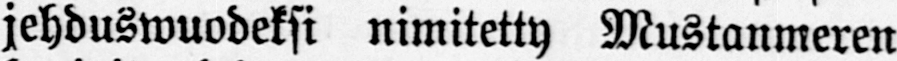jehduswuodeksi nimitetty Mustanmeren
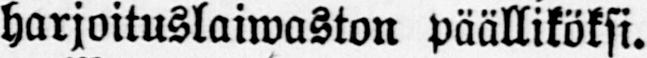harjoituslaiwaston päälliköksi.
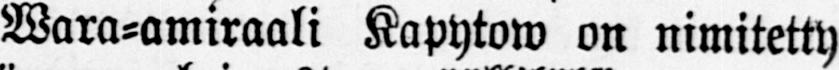Wara-amiraali Kapytow on nimitetty
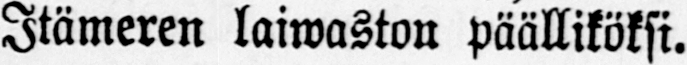Itämeren laiwaston päälliköksi.
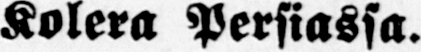Kolera Persiassa.
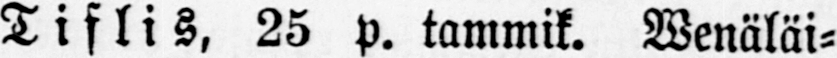Tiflis. 25 p. tammik. Wenäläi-
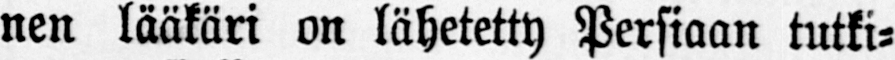nen lääkäri on lähetetty Persiaan tutki-
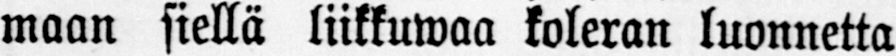maan siellä liikkuwaa koleran luonnetta
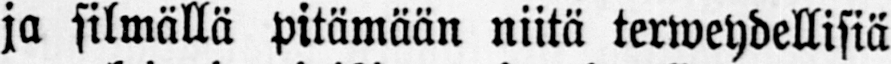ja silmällä pitämään niitä terweydellisiä
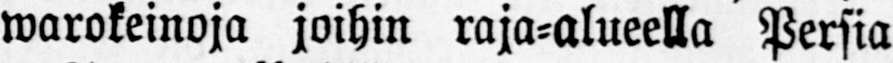warokeinoja joihin raja-alueella Persia
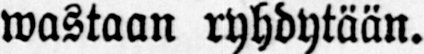wastaan ryhdytään.
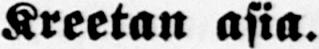Kreetan asia.
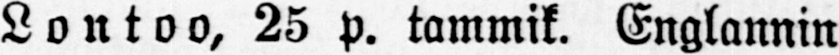Lontoo, 25 p. tammik. Englannin
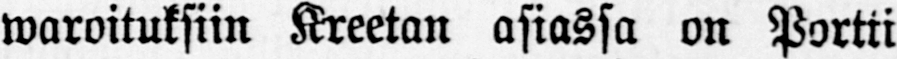waroituksiin Kreetan asiassa on Portti
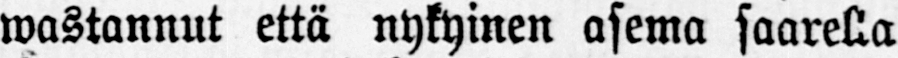wastannut että nykyinen asema saarella
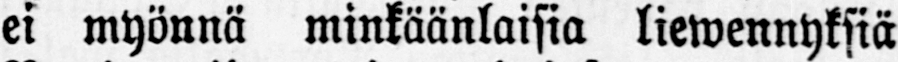ei myönnä minkäänlaisia liewennyksiä
